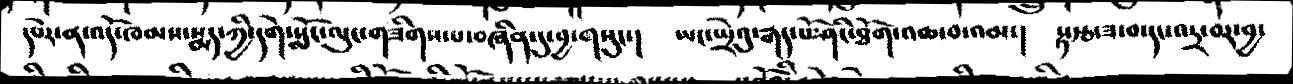དཔེར་ན་འདོ་ཁམས་སྨད་ཀྱི་དགེ་སློང་ལུང་གཟིགས་པ་བཞིན་དུ་བྱ་གསུང་།  ཡང་སྤྲེའུ་རྒད་པོ་ཤིང་ཐོག་འཆ་བ་འམ་།  རྟ་རྩ་ཟ་བ་དང་འདྲ་བར་བྱ་
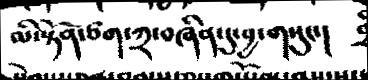མི་སྟོན་ཙག་ཀྲ་བཞིན་དུ་བྱ་གསུང་།
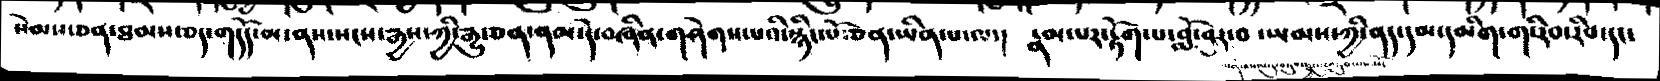སེམས་ཅན་ཐམས་ཅད་གདོད་མ་ནས་སངས་རྒྱས་ཀྱི་རྒྱུ་ཅན་ནམ་དེ་བཞིན་གཤེགས་པའི་སྙིང་པོ་ཅན་ཡིན་པ་ལ་།  རྣམ་པར་རྟོག་པ་བློ་བུར་བ་ཡམས་ཀྱི་ནད་དམ་དམིག་ག་རིབ་རིབ་དང་
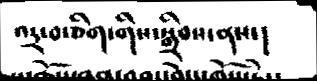འདྲ་ཅིག་གིས་སྒྲིབས་ནས་།
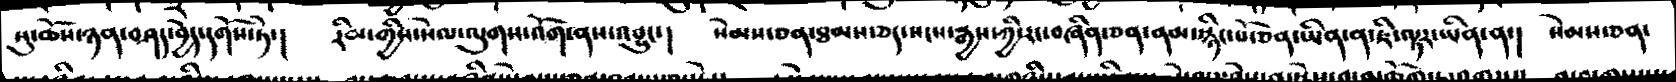སུ་ཆོས་ཉན་བཤད་བྱེད་དགོས་ཏེ་།  རིམ་གྱིས་སེལ་ལུགས་འོག་ནས་འབྱུང་།  སེམས་ཅན་ཐམས་ཅད་སངས་རྒྱས་ཀྱི་རང་བཞིན་ཅན་ནམ་རྙིང་པོ་ཅན་ཡིན་ན་ཇི་ལྟར་ཡིན་ན་། ་སེམས་ཅན་
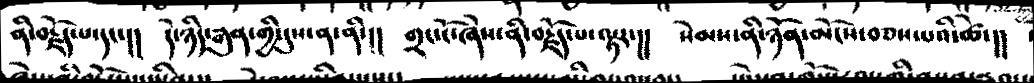ནི་བརྗོད་པ་དང་།།  དེ་ཉིད་རྒུན་གྱི་དུས་ན་ནི་།།  གྲང་ངོ་ཞེས་ནི་བརྗོད་པ་ལྟར་།།  སེམས་ནི་ཉོན་མོངས་བཅས་པའི་ཚེ་།།
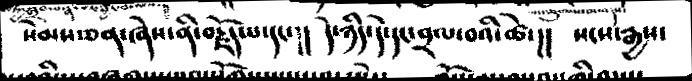སེམས་ཅན་ཞེས་ནི་བརྗོད་པ་དང་།།  དེ་ཉིད་དེ་དང་བྲལ་བའི་ཚེ་།། སངས་རྒྱས་
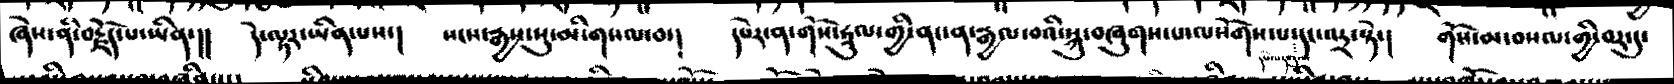ཞེས་ནི་བརྗོད་པ་ཡིན་།།  དེ་ལྟར་ཡིན་པས་།  སངས་རྒྱས་སུ་མི་གསལ་བ་།  དཔེར་ན་གོས་ཧྲུལ་གྱི་ནང་ན་རྒྱལ་བའི་སྐུ་བཞུགས་པ་ལསོགས་པ་དང་འདྲ་སྟེ་།   གོས་མ་བསལ་གྱི་བར་དུ་
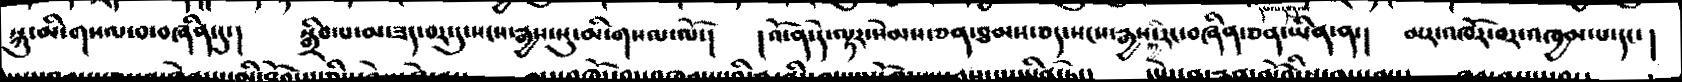སྐུ་མི་གསལ་བ་བཞིན་དུ་།  སྒྲིབ་པ་མ་ཟད་བར་དུ་སངས་རྒྱས་སུ་མི་གསལ་ལོ་།  །འོ་ན་དེ་ལྟར་སེམས་ཅན་ཐམས་ཅད་སངས་རྒྱས་ཀྱི་རང་བཞིན་ཅན་ཡིན་ན་།  མར་འཁོར་བར་འཁྱམ་པ་དང་།
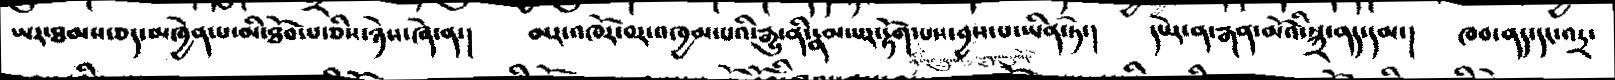ཡར་ཐམས་ཅད་མཁྱེན་པ་མི་ཐོབ་པ་ཅིས་ཉེས་ཞེ་ན་།  མར་འཁོར་བར་འཁྱམ་པའི་རྒྱུ་ནི་རྣམ་པར་རྟོག་པས་བྱས་པ་ཡིན་ཏེ་།  དཔེར་ན་རྒན་མོའི་སྐྲ་ནད་དམ་།  ཁབ་ནད་དང་འདྲ་
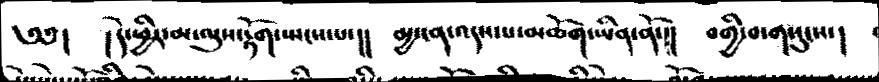༄༅།  ། དེ་ཕྱིར་་མ་ལས་རྟོག་སྤངས་པ་།།   མྱ་ངན་འདས་པ་མཆོག་ཡིན་ནོ་།།  བགྱི་བ་གསུངས་།
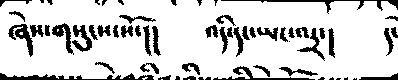ཞེས་གསུངས་སོ་།།  འདི་དང་ཡང་འདྲ་།  ད་
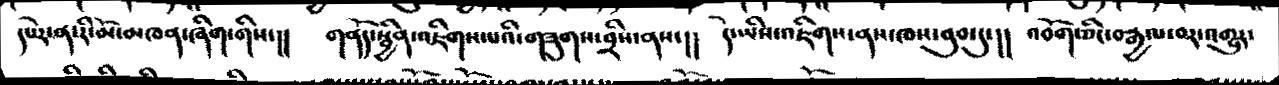དཔེར་ན་རི་མོ་མཁན་ཞིག་གིས་།།  གནོད་སྦྱིན་འཇིགས་པའི་གཟུགས་བྲིས་ནས་།།  དེ་ཡིས་འཇིགས་ནས་ཁས་བུབ་དུ་།། འབོག་ཅིང་བརྒྱལ་བར་འགྱུར་
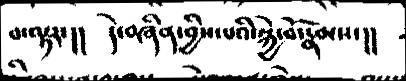པ་ལྟར་།།  དེ་བཞིན་བྱིས་པའི་སྐྱེ་བོ་རྣམས་།།
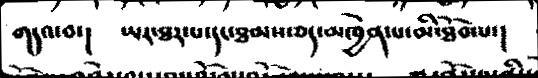གདའ་བ་།  ཡར་ཐར་པ་དང་ཐམས་ཅད་མཁྱེན་པ་མི་ཐོབ་པ་།
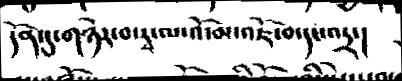དོན་དུ་གཉེར་ན་རྭ་ལ་འོ་མ་འཇོ་བ་དང་འཏྲ་།
